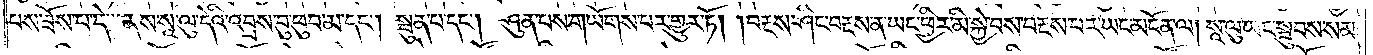པས་ཟོས་པ་དེ་ནས་སཱ་ལུ་དེའི་འབྲས་བུ་ཕུབ་མ་དང༌། སྦུན་པ་དང༌། ཤུན་པས་གཡོགས་པར་གྱུར་ཏོ། །བརྔས་ཤིང་བརྔས་ན་ཡང་ཕྱིར་མི་སྐྱེ་བས་བརྔས་པར་ཡང་མངོན་ལ། སཱ་ལུ་ཡང་སྦུབས་སམ།
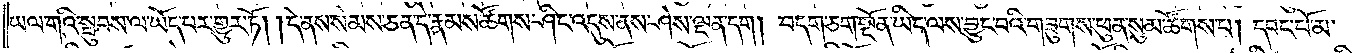ཡལ་གའི་སྦུབས་ལ་ཡོད་པར་གྱུར་ཏོ། །དེ་ནས་སེམས་ཅན་དེ་རྣམས་ཚོགས་ཤིང་འདུས་ནས་ཤེས་ལྡན་དག །བདག་ཅག་སྔོན་ཡིད་ལས་བྱུང་བའི་གཟུགས་ཕུན་སུམ་ཚོགས་པ། དབང་པོ་མ་
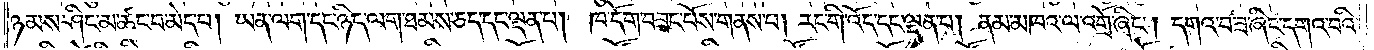ཉམས་ཤིང་མ་ཚང་བ་མེད་པ། ཡན་ལག་དང་ཉིད་ལག་ཐམས་ཅད་དང་ལྡན་པ། ཁ་དོག་བཟང་པོས་གནས་པ། རང་གི་འོད་དང་ལྡན་པ། ནམ་མཁའ་ལ་འགྲོ་ཞིང༌། དགའ་བ་ཟ་ཞིང་དགའ་བའི་
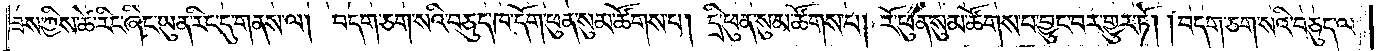ཟས་ཀྱིས་ཚེ་རིང་ཞིང་ཡུན་རིང་དུ་གནས་ལ། བདག་ཅག་སའི་བཅུད་ཁ་དོག་ཕུན་སུམ་ཚོགས་པ། དྲི་ཕུན་སུམ་ཚོགས་པ། རོ་ཕུན་སུམ་ཚོགས་པ་བྱུང་བར་གྱུར་ཏོ། །བདག་ཅག་སའི་བཅུད་ལ་
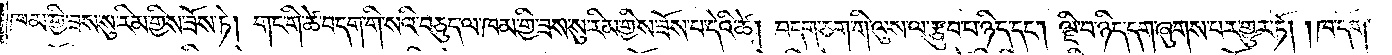ཁམ་གྱི་ཟས་སུ་རིམ་གྱིས་ཟོས་ཏེ། གང་གི་ཚེ་བདག་གི་སའི་བཅུད་ལ་ཁམ་གྱི་ཟས་སུ་རིམ་གྱིས་ཟོས་པ་དེའི་ཚེ། བདག་ཅག་གི་ལུས་ལ་རྩུབ་པ་ཉིད་དང༌། ལྗི་བ་ཉིད་དག་ཞུགས་པར་གྱུར་ཏོ། །ཁ་དོག་
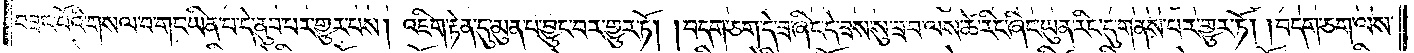བཟང་པོའི་གསལ་བ་གང་ཡིན་པ་དེ་ནུབ་པར་གྱུར་པས། འཇིག་རྟེན་དུ་མུན་པ་བྱུང་བར་གྱུར་ཏོ། །བདག་ཅག་དེ་ཟ་ཞིང་དེ་ཟས་སུ་ཟ་བ་ལས་ཚེ་རིང་ཞིང་ཡུན་རིང་དུ་གནས་པར་གྱུར་ཏོ། །བདག་ཅག་ལས་
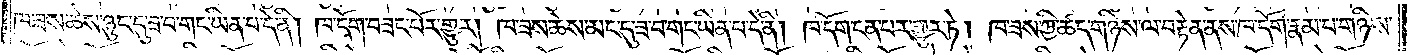ཁ་ཟས་ཆེས་ཉུང་དུ་ཟ་བ་གང་ཡིན་པ་དེ་ནི། ཁ་དོག་བཟང་པོར་གྱུར། ཁ་ཟས་ཆེས་མང་དུ་ཟ་བ་གང་ཡིན་པ་དེ་ནི། ཁ་དོག་ངན་པར་གྱུར་ཏེ། ཁ་ཟས་ཀྱི་ཚད་གཉིས་ལ་བརྟེན་ནས་ཁ་དོག་རྣམ་པ་གཉིས་
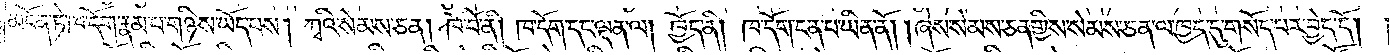མངོན་ཏེ་ཁ་དོག་རྣམ་པ་གཉིས་ཡོད་པས། ཀྭའི་སེམས་ཅན། ཁོ་བོ་ནི། ཁ་དོག་དང་ལྡན་ལ། ཁྱོད་ནི། ཁ་དོག་ངན་པ་ཡིན་ནོ། །ཞེས་སེམས་ཅན་གྱིས་སེམས་ཅན་ལ་ཁྱད་དུ་གསོད་པར་བྱེད་དོ། །
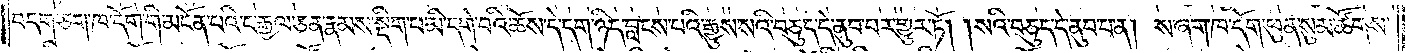བདག་ཅག་ཁ་དོག་གི་མངོན་པའི་ང་རྒྱལ་ཅན་རྣམས་སྡིག་པ་མི་དགེ་བའི་ཆོས་དེ་དག་ཉིད་བླངས་པའི་རྒྱུས་སའི་བཅུད་དེ་ནུབ་པར་གྱུར་ཏོ། །སའི་བཅུད་དེ་ནུབ་པ་ན། ས་ཞག་ཁ་དོག་ཕུན་སུམ་ཚོགས་
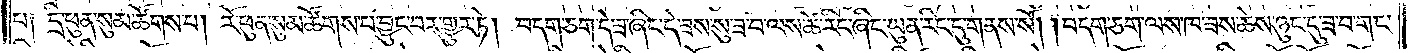པ༑ དྲི་ཕུན་སུམ་ཚོགས་པ། རོ་ཕུན་སུམ་ཚོགས་པ་བྱུང་བར་གྱུར་ཏེ། བདག་ཅག་དེ་ཟ་ཞིང་དེ་ཟས་སུ་ཟ་བ་ལས་ཚེ་རིང་ཞིང་ཡུན་རིང་དུ་གནས་སོ། །བདག་ཅག་ལས་ཁ་ཟས་ཆེས་ཉུང་དུ་ཟ་བ་གང་
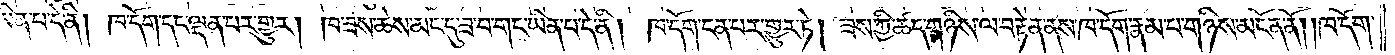ཡིན་པ་དེ་ནི། ཁ་དོག་དང་ལྡན་པར་གྱུར། ཁ་ཟས་ཆེས་མང་དུ་ཟ་བ་གང་ཡིན་པ་དེ་ནི། ཁ་དོག་ངན་པར་གྱུར་ཏེ། ཟས་ཀྱི་ཚད་གཉིས་ལ་བརྟེན་ནས་ཁ་དོག་རྣམ་པ་གཉིས་མངོན་ནོ། །ཁ་དོག་
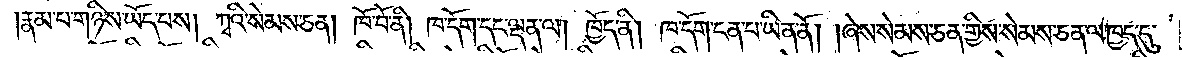རྣམ་པ་གཉིས་ཡོད་པས། ཀྭའི་སེམས་ཅན། ཁོ་བོ་ནི། ཁ་དོག་དང་ལྡན་ལ། ཁྱོད་ནི། ཁ་དོག་ངན་པ་ཡིན་ནོ། །ཞེས་སེམས་ཅན་གྱིས་སེམས་ཅན་ལ་ཁྱད་དུ་
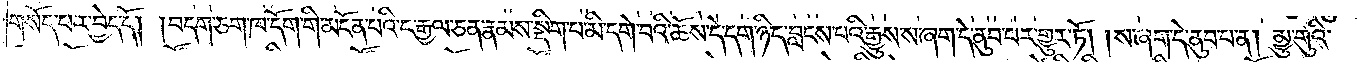གསོད་པར་བྱེད་དོ། །བདག་ཅག་ཁ་དོག་གི་མངོན་པའི་ང་རྒྱལ་ཅན་རྣམས་སྡིག་པ་མི་དགེ་བའི་ཆོས་དེ་དག་ཉིད་བླངས་པའི་རྒྱུས་ས་ཞག་དེ་ནུབ་པར་གྱུར་ཏོ། །ས་ཞག་དེ་ནུབ་པ་ན། མྱུ་གུའི་
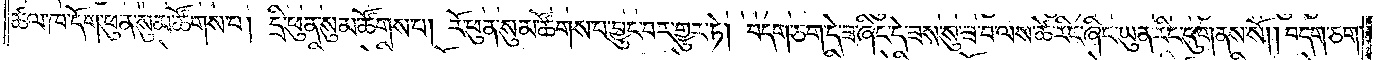ཚལ་ཁ་དོག་ཕུན་སུམ་ཚོགས་པ། དྲི་ཕུན་སུམ་ཚོགས་པ། རོ་ཕུན་སུམ་ཚོགས་པ་བྱུང་བར་གྱུར་ཏེ། བདག་ཅག་དེ་ཟ་ཞིང་དེ་ཟས་སུ་ཟ་བ་ལས་ཚེ་རིང་ཞིང་ཡུན་རིང་དུ་གནས་སོ། །བདག་ཅག་
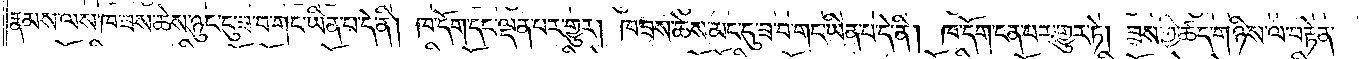རྣམས་ལས་ཁ་ཟས་ཆེས་ཉུང་ངུ་ཟ་བ་གང་ཡིན་པ་དེ་ནི། ཁ་དོག་དང་ལྡན་པར་གྱུར། ཁ་ཟས་ཆེས་མང་དུ་ཟ་བ་གང་ཡིན་པ་དེ་ནི། ཁ་དོག་ངན་པར་གྱུར་ཏེ། ཟས་ཀྱི་ཚད་གཉིས་ལ་བརྟེན་
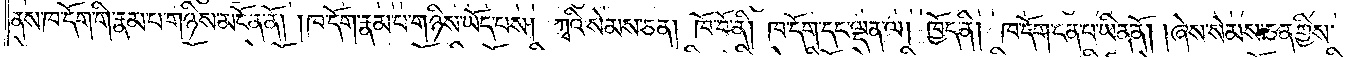ནས་ཁ་དོག་གི་རྣམ་པ་གཉིས་མངོན་ནོ། །ཁ་དོག་རྣམ་པ་གཉིས་ཡོད་པས། ཀྭའི་སེམས་ཅན། ཁོ་བོ་ནི། ཁ་དོག་དང་ལྡན་ལ། ཁྱོད་ནི། ཁ་དོག་ངན་པ་ཡིན་ནོ། །ཞེས་སེམས་ཅན་གྱིས་
